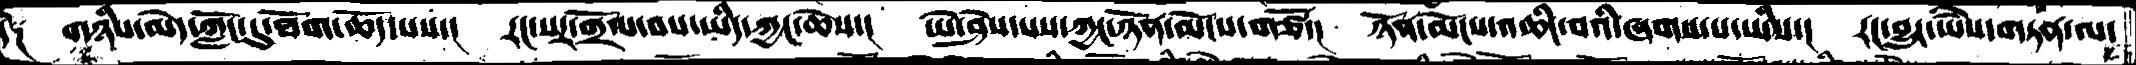དེ༑  གཉིས་མེད་ཀློང་དུ་ཐོག་ཆོད་པས་། རང་སར་གྲོལ་བས་ཡིད་ཀྱང་ཆེས་། ཡེ་ཤེས་པས་ཀྱང་ཉོན་མོངས་གཙོ་། ཉོན་མོངས་འཆིང་བའི་ཞགས་པ་ཡིས་། རང་བྱུང་ཡཻས་གཏན་ལ་
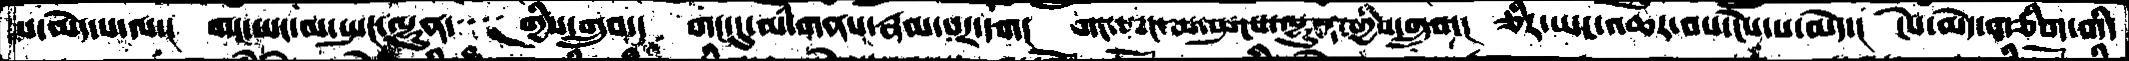པ་མེད་པ་ལ་། གང་ཡང་མ་སྤང་ལྷུན་་་་གྱིས་གྲུབ་། གང་དུ་མི་གནས་རྣམ་པར་དག། གང་ཡང་མ་སྤངས་ལྷུན་གྱིས་གྲུབ་། ཅིར་ཡང་འཆར་བས་ངེས་པ་མེད་། ངེས་མེད་གཅིག་གི་
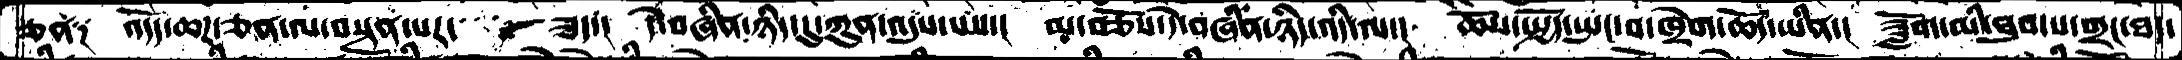ཅན༑  འདོད་ཆཌ་ཅན་ལ་བསྟན་པར་་་ཟད་། དེ་བཞིན་ཉིད་དུ་ཀུན་འདུས་པས་། མ་བཅོས་དེ་བཞིན་ཉིད་འདི་ལ་། ཆོས་སྤྱོད་སྤང་བ་ཁྲེག་ཆོད་ཡིན་། ཟློག་མི་ཐུབ་པ་གྲང་ཐད་
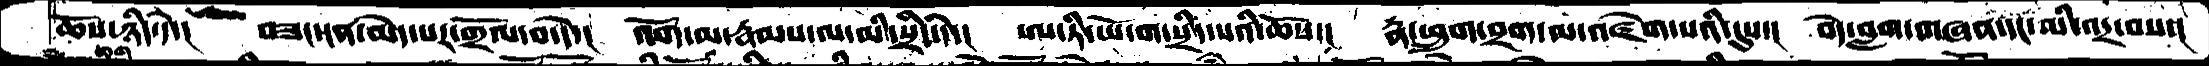ཆོས་ཉིད་དེ་། བཟང་ངན་མེད་པར་གྲོལ་བ་དེ་། འོག་མ་རྣམས་ལ་མི་སྲིད་དེ་། ཨ་ཏི་ཡོ་ག་སྲིད་པའི་ཆོས་། རྣ་ཕྲུག་བྲག་ལ་འཛེག་པའི་དུས་། བདེ་བླག་གཞན་དང་མི་འདྲ་བས་།
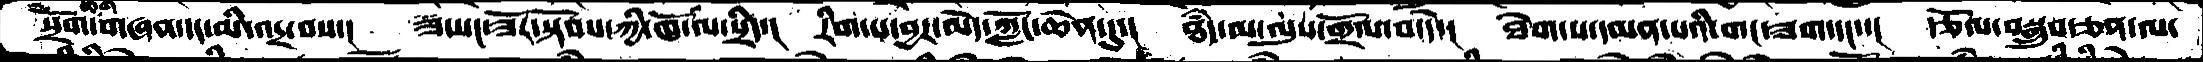སྲོག་ཆག་གཞན་དང་མི་འདྲ་བས་། ཟཡང་ཟོར་སྟོབས་ཀྱི་ཁོ་ལ་སྲིད་། རིག་པ་བྱར་མེད་ཀློང་ཆེན་དུ་ ཐདཾ་མ་ལུས་གྲོལ་བ་དེ་། ཐེག་པ་དམན་པའི་གང་ཟག་དང་་། རྩོལ་བསྒྲུབ་ཅན་ལ་
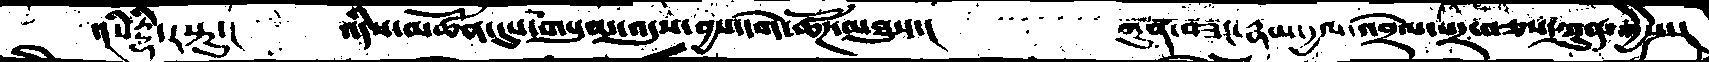་།སིདྡྷི་རསྟུ་།  འདིས་མཚོན་དུས་གསུམ་འདུས་བྱས་དགེ་ཚོཌ་མཐུས་།    ཀུན་བཟང་རྣམ་དྱལ་འབྲེལ་པར་བཅས་ཀུན་གྱིས་།
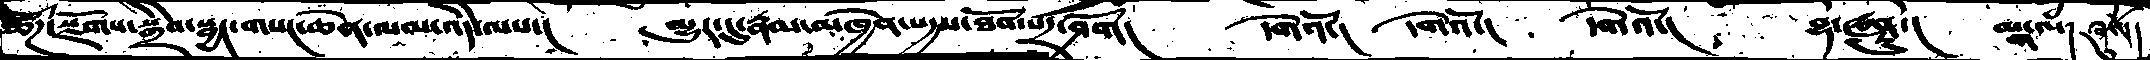ཚོཌ་སྫོགས་སྒྲིབ་སྦྱང་གསང་ཆེན་ལམ་འདི་ལས་།  མྱུར་དུ་རྣམ་མཁྱེན་སདྱས་ཐོབ་པར་ཤོག།  དགེའོ་།  དགེའོ་།  དགེའོ་།  བྷ་ཝནྟུ་།  མངྒ་ལཾ་།  ཞུསོ།
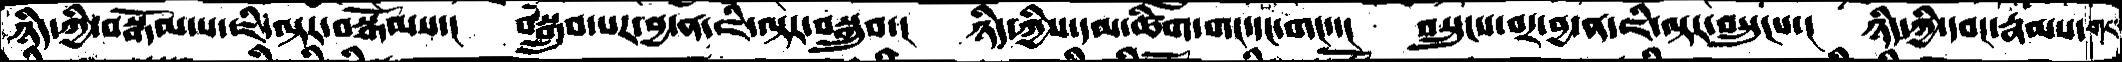ཉིད་ཀྱི་བསྒོམ་པ་ཇི་ལྟར་བསྒོམས་། བསྒྲུབ་པར་བྱ་ན་ཇི་ལྟར་བསྒྲུབ་། ཉིད་ཀྱིས་དམ་ཚིག་གང་དང་གང་་། བསྲུངས་བར་བྱ་ན་ཇི་ལྟར་བསྲུངས་། ཉིད་ཀྱི་དབང་རྣམས་གང་
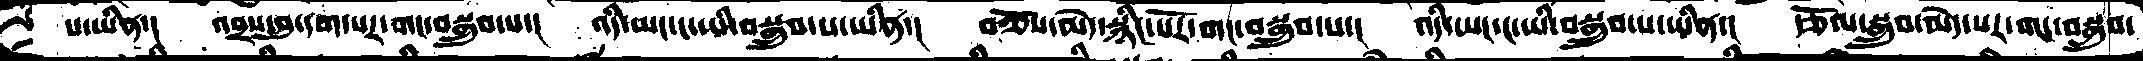པ་ཡིན་། འབྲས་བུ་དག་པར་གང་བསྒྲུབ་པ་། འདི་ཡང་ང་ཡི་བསྒྲུབ་པ་ཡིན་། བཅོས་མེད་སྙིང་པོར་གང་བསྒྲུབ་པ་། འདི་ཡང་ང་ཡི་བསྒྲུབ་པ་ཡིན་། རྩོལ་སྒྲུབ་མེད་པར་གང་བསྒྲུབ་
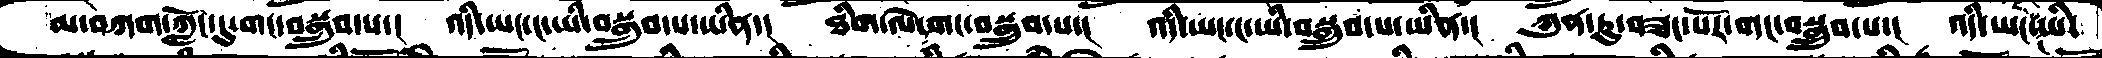མ་བཀག་ཀློག་དུ་གང་བསྒྲུབ་པ་། འདི་ཡང་ང་ཡི་བསྒྲུབ་པ་ཡིན་། ཐིག་ལེ་གང་བསྒྲུབ་པ་། འདི་ཡང་ང་ཡི་བསྒྲུབ་པ་ཡིན་། ཀུན་ཏུ་བཟང་པོར་གང་བསྒྲུབ་པ་། འདི་ཡང་ང་ཡི་
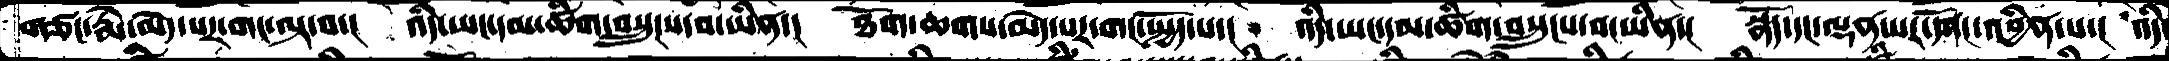གཙང་རྨེ་མེད་པར་གང་ལྟ་བ་། འདི་ཡང་དམ་ཚིག་བསྲུངས་བ་ཡིན་། ཐོག་ཆགས་མེད་པར་གང་སྤྱོད་པ་། འདི་ཡང་དམ་ཚིག་བསྲུངས་བ་ཡིན་། སྣོད་དང་ལྡན་པར་དགོང་འབྱིན་པ་། འདི་
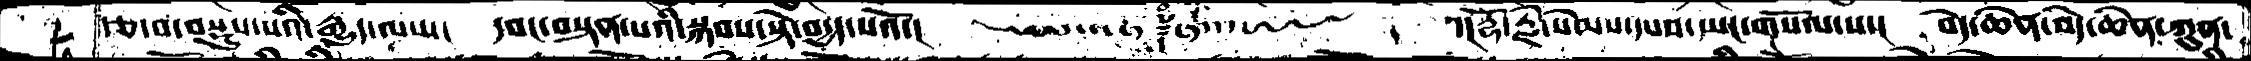རྩ་བ་བསྡུས་པའི་རྒྱུད་ལས་།  དབང་བསྟན་པའི་སྐབས་སྟེ་བདྱས་པའོ་།     ༈    ་།རྡོ་རྗེ་སེམས་དཔས་ཡང་གསོལ་པ་། བདེ་ཆེན་བདེ་ཆེན་ཀུན་
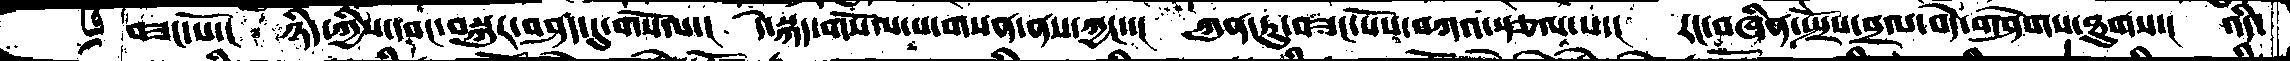བཟང་པོ་།  ཉིད་ཀྱིས་དབང་བསྐུར་བཤད་དུ་གསོལ་། དེ་སྐད་གསོལ་པ་གསན་ནས་ཀྱང་་། ཀུན་ཏུ་བཟང་པོས་བཀའ་སྩལ་པ་། རང་བཞིན་སྤྲོས་བྲལ་བདེ་གཤེགས་ཐུགས་། འདི་
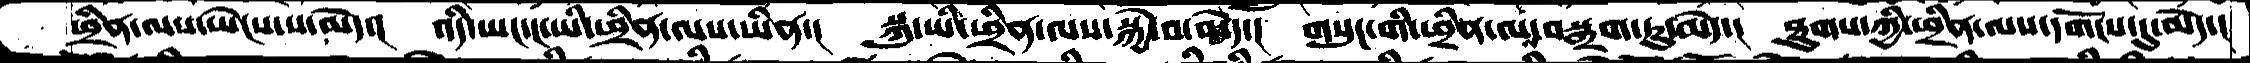ཕྲིན་ལས་ཡེངས་པ་མེད་། འདི་ཡང་ང་ཡི་ཕྲིན་ལས་ཡིན་། སྐུ་ཡི་ཕྲིན་ལས་སྐྱེ་བ་མེད་། གསུང་གི་ཕྲིན་ལས་བསྒྲག་ཏུ་མེད་། ཐུགས་ཀྱི་ཕྲིན་ལས་དགོངས་དུ་མེད་།
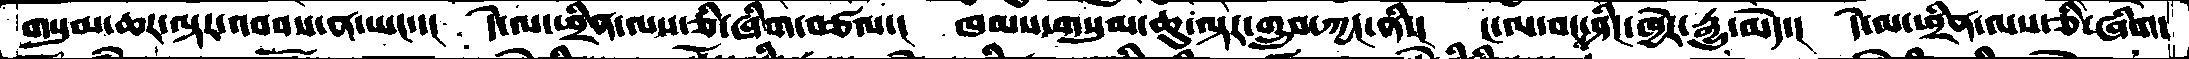གསུམ་ཆར་ལྟར་འབབས་ན་ཡང་་། དེ་ལ་ཕྲིན་ལས་ཅི་ཞིག་བཙལ་། ཁམས་གསུམ་ཆུ་ལྟར་གྲུབ་ཀྱང་ནི་། ང་ལ་བངས་ཤིང་ཁྱེར་རྒྱུ་མེད་། དེ་ལ་ཕྲིན་ལས་ཅི་ཞིག་
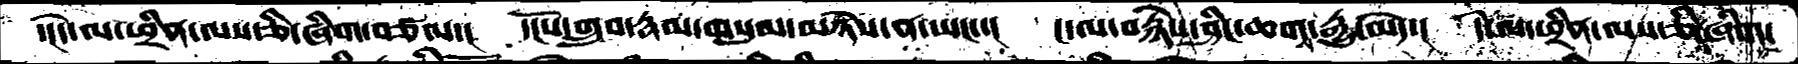་།དེ་ལ་ཕྲིན་ལས་ཅི་ཞིག་བཙལ་།  དངོས་གྲུབ་རྣམ་གསུམ་མཉེས་ན་ཡང་་། ང་ལ་བརྙེས་ཤིང་ཆགས་རྒྱུ་མེད་། དེ་ལ་ཕྲིན་ལས་ཅི་ཞིག་
